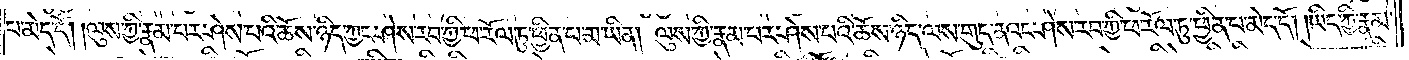པ་མེད་དོ། །ལུས་ཀྱི་རྣམ་པར་ཤེས་པའི་ཆོས་ཉིད་ཀྱང་ཤེས་རབ་ཀྱི་ཕ་རོལ་ཏུ་ཕྱིན་པ་མ་ཡིན། ལུས་ཀྱི་རྣམ་པར་ཤེས་པའི་ཆོས་ཉིད་ལས་གུད་ནའང་ཤེས་རབ་ཀྱི་ཕ་རོལ་ཏུ་ཕྱིན་པ་མེད་དོ། །ཡིད་ཀྱི་རྣམ་
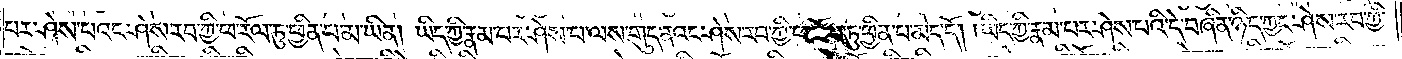པར་ཤེས་པའང་ཤེས་རབ་ཀྱི་ཕ་རོལ་ཏུ་ཕྱིན་པ་མ་ཡིན། ཡིད་ཀྱི་རྣམ་པར་ཤེས་པ་ལས་གུད་ནའང་ཤེས་རབ་ཀྱི་ཕ་རོལ་ཏུ་ཕྱིན་པ་མེད་དོ། །ཡིད་ཀྱི་རྣམ་པར་ཤེས་པའི་དེ་བཞིན་ཉིད་ཀྱང་ཤེས་རབ་ཀྱི་
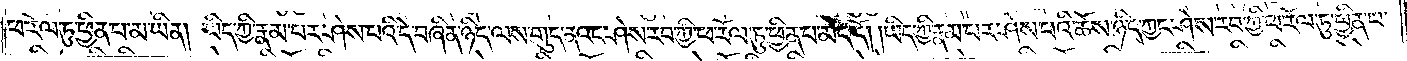ཕ་རོལ་ཏུ་ཕྱིན་པ་མ་ཡིན། ཡིད་ཀྱི་རྣམ་པར་ཤེས་པའི་དེ་བཞིན་ཉིད་ལས་གུད་ནའང་ཤེས་རབ་ཀྱི་ཕ་རོལ་ཏུ་ཕྱིན་པ་མེད་དོ། །ཡིད་ཀྱི་རྣམ་པར་ཤེས་པའི་ཆོས་ཉིད་ཀྱང་ཤེས་རབ་ཀྱི་ཕ་རོལ་ཏུ་ཕྱིན་པ་
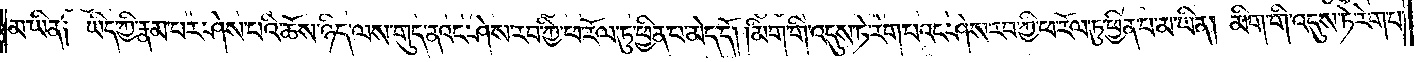མ་ཡིན༑ ཡིད་ཀྱི་རྣམ་པར་ཤེས་པའི་ཆོས་ཉིད་ལས་གུད་ནའང་ཤེས་རབ་ཀྱི་ཕ་རོལ་ཏུ་ཕྱིན་པ་མེད་དོ། །མིག་གི་འདུས་ཏེ་རེག་པའང་ཤེས་རབ་ཀྱི་ཕ་རོལ་ཏུ་ཕྱིན་པ་མ་ཡིན། མིག་གི་འདུས་ཏེ་རེག་པ་
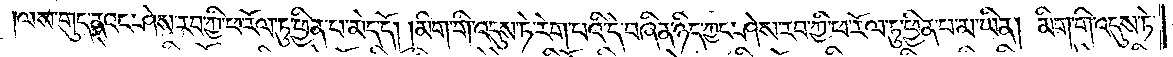ལས་གུད་ནའང་ཤེས་རབ་ཀྱི་ཕ་རོལ་ཏུ་ཕྱིན་པ་མེད་དོ། །མིག་གི་འདུས་ཏེ་རེག་པའི་དེ་བཞིན་ཉིད་ཀྱང་ཤེས་རབ་ཀྱི་ཕ་རོལ་ཏུ་ཕྱིན་པ་མ་ཡིན། མིག་གི་འདུས་ཏེ་
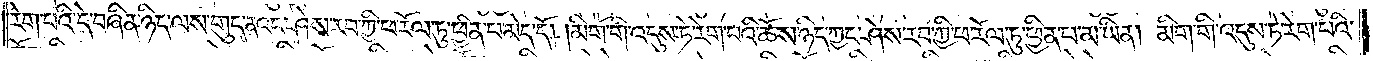རེག་པའི་དེ་བཞིན་ཉིད་ལས་གུད་ནའང་ཤེས་རབ་ཀྱི་ཕ་རོལ་ཏུ་ཕྱིན་པ་མེད་དོ། །མིག་གི་འདུས་ཏེ་རེག་པའི་ཆོས་ཉིད་ཀྱང་ཤེས་རབ་ཀྱི་ཕ་རོལ་ཏུ་ཕྱིན་པ་མ་ཡིན། མིག་གི་འདུས་ཏེ་རེག་པའི་
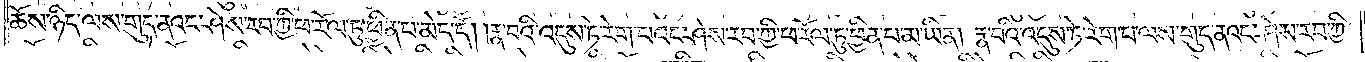ཆོས་ཉིད་ལས་གུད་ནའང་ཤེས་རབ་ཀྱི་ཕ་རོལ་ཏུ་ཕྱིན་པ་མེད་དོ། །རྣ་བའི་འདུས་ཏེ་རེག་པའང་ཤེས་རབ་ཀྱི་ཕ་རོལ་ཏུ་ཕྱིན་པ་མ་ཡིན། རྣ་བའི་འདུས་ཏེ་རེག་པ་ལས་གུད་ནའང་ཤེས་རབ་ཀྱི་
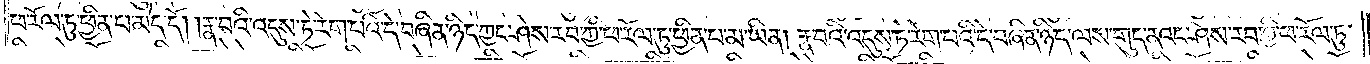ཕ་རོལ་ཏུ་ཕྱིན་པ་མེད་དོ། །རྣ་བའི་འདུས་ཏེ་རེག་པའི་དེ་བཞིན་ཉིད་ཀྱང་ཤེས་རབ་ཀྱི་ཕ་རོལ་ཏུ་ཕྱིན་པ་མ་ཡིན། རྣ་བའི་འདུས་ཏེ་རེག་པའི་དེ་བཞིན་ཉིད་ལས་གུད་ནའང་ཤེས་རབ་ཀྱི་ཕ་རོལ་ཏུ་
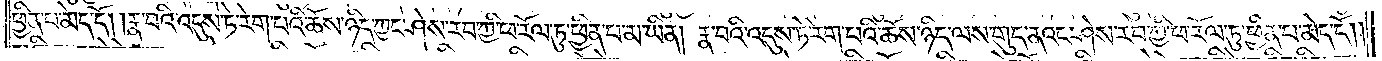ཕྱིན་པ་མེད་དོ། །རྣ་བའི་འདུས་ཏེ་རེག་པའི་ཆོས་ཉིད་ཀྱང་ཤེས་རབ་ཀྱི་ཕ་རོལ་ཏུ་ཕྱིན་པ་མ་ཡིན། རྣ་བའི་འདུས་ཏེ་རེག་པའི་ཆོས་ཉིད་ལས་གུད་ནའང་ཤེས་རབ་ཀྱི་ཕ་རོལ་ཏུ་ཕྱིན་པ་མེད་དོ༎
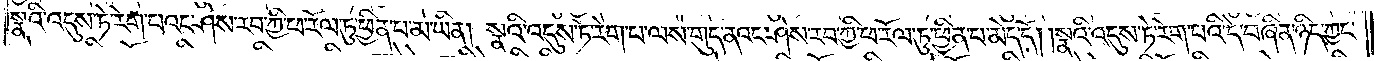སྣའི་འདུས་ཏེ་རེག་པའང་ཤེས་རབ་ཀྱི་ཕ་རོལ་ཏུ་ཕྱིན་པ་མ་ཡིན། སྣའི་འདུས་ཏེ་རེག་པ་ལས་གུད་ནའང་ཤེས་རབ་ཀྱི་ཕ་རོལ་ཏུ་ཕྱིན་པ་མེད་དོ། །སྣའི་འདུས་ཏེ་རེག་པའི་དེ་བཞིན་ཉིད་ཀྱང་
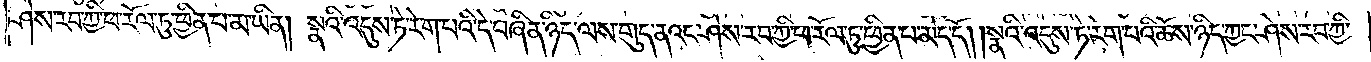ཤེས་རབ་ཀྱི་ཕ་རོལ་ཏུ་ཕྱིན་པ་མ་ཡིན། སྣའི་འདུས་ཏེ་རེག་པའི་དེ་བཞིན་ཉིད་ལས་གུད་ནའང་ཤེས་རབ་ཀྱི་ཕ་རོལ་ཏུ་ཕྱིན་པ་མེད་དོ། །སྣའི་འདུས་ཏེ་རེག་པའི་ཆོས་ཉིད་ཀྱང་ཤེས་རབ་ཀྱི་
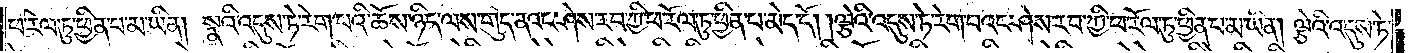ཕ་རོལ་ཏུ་ཕྱིན་པ་མ་ཡིན། སྣའི་འདུས་ཏེ་རེག་པའི་ཆོས་ཉིད་ལས་གུད་ནའང་ཤེས་རབ་ཀྱི་ཕ་རོལ་ཏུ་ཕྱིན་པ་མེད་དོ། །ལྕེའི་འདུས་ཏེ་རེག་པའང་ཤེས་རབ་ཀྱི་ཕ་རོལ་ཏུ་ཕྱིན་པ་མ་ཡིན། ལྕེའི་འདུས་ཏེ་
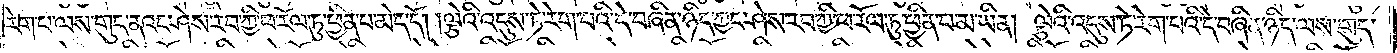རེག་པ་ལས་གུད་ནའང་ཤེས་རབ་ཀྱི་ཕ་རོལ་ཏུ་ཕྱིན་པ་མེད་དོ། །ལྕེའི་འདུས་ཏེ་རེག་པའི་དེ་བཞིན་ཉིད་ཀྱང་ཤེས་རབ་ཀྱི་ཕ་རོལ་ཏུ་ཕྱིན་པ་མ་ཡིན། ལྕེའི་འདུས་ཏེ་རེག་པའི་དེ་བཞིན་ཉིད་ལས་གུད་
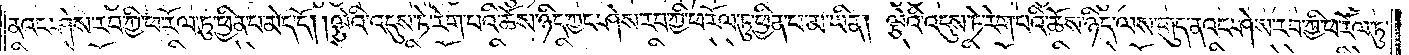ནའང་ཤེས་རབ་ཀྱི་ཕ་རོལ་ཏུ་ཕྱིན་པ་མེད་དོ། །ལྕེའི་འདུས་ཏེ་རེག་པའི་ཆོས་ཉིད་ཀྱང་ཤེས་རབ་ཀྱི་ཕ་རོལ་ཏུ་ཕྱིན་པ་མ་ཡིན། ལྕེའི་འདུས་ཏེ་རེག་པའི་ཆོས་ཉིད་ལས་གུད་ནའང་ཤེས་རབ་ཀྱི་ཕ་རོལ་ཏུ་
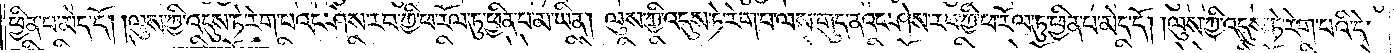ཕྱིན་པ་མེད་དོ། །ལུས་ཀྱི་འདུས་ཏེ་རེག་པའང་ཤེས་རབ་ཀྱི་ཕ་རོལ་ཏུ་ཕྱིན་པ་མ་ཡིན། ལུས་ཀྱི་འདུས་ཏེ་རེག་པ་ལས་གུད་ནའང་ཤེས་རབ་ཀྱི་ཕ་རོལ་ཏུ་ཕྱིན་པ་མེད་དོ། །ལུས་ཀྱི་འདུས་ཏེ་རེག་པའི་དེ་
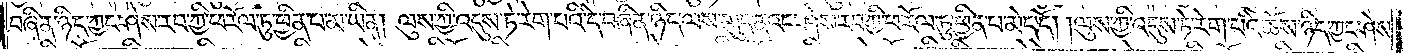བཞིན་ཉིད་ཀྱང་ཤེས་རབ་ཀྱི་ཕ་རོལ་ཏུ་ཕྱིན་པ་མ་ཡིན། ལུས་ཀྱི་འདུས་ཏེ་རེག་པའི་དེ་བཞིན་ཉིད་ལས་གུད་ནའང་ཤེས་རབ་ཀྱི་ཕ་རོལ་ཏུ་ཕྱིན་པ་མེད་དོ། །ལུས་ཀྱི་འདུས་ཏེ་རེག་པའི་ཆོས་ཉིད་ཀྱང་ཤེས་
